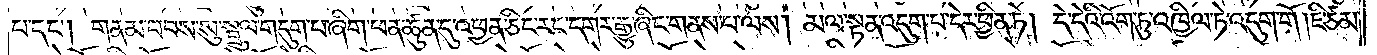པ་དང༌། གནམ་བབས་སུ་སྦྲུལ་གདུག་པ་ཞིག་ཕན་ཚུན་དུ་འཕྱན་ཅིང་རང་དགར་རྒྱུ་ཞིང་གནས་པ་ལས། མལ་སྟན་འདུག་པ་དེར་ཕྱིན་ཏེ། དེ་དེའི་འོག་ཏུ་འཁྱིལ་ཏེ་འདུག་གོ །ཇི་ཙམ་
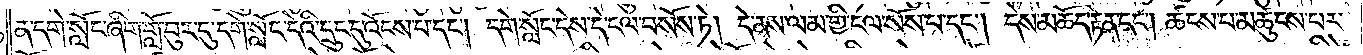ན་དགེ་སློང་ཞིག་གློ་བུར་དུ་དགེ་སློང་དེའི་དྲུང་དུ་འོངས་པ་དང༌། དགེ་སློང་དེས་དེ་ངལ་བསོས་ཏེ། དེ་ནས་ལམ་གྱི་ངལ་སོས་པ་དང༌། དེས་མཆོག་རྟེན་དང༌། ཚངས་པ་མཚུངས་པར་
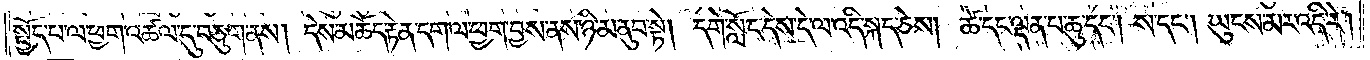སྤྱོད་པ་ལ་ཕྱག་འཚལ་དུ་བཅུག་ནས། དེས་མཆོད་རྟེན་དག་ལ་ཕྱག་བྱས་ནས་ཉི་མ་ནུབ་སྟེ། དགེ་སློང་དེས་དེ་ལ་འདི་སྐད་ཅེས། ཚེ་དང་ལྡན་པ་ཆུ་དང༌། ས་དང༌། ཡུངས་མར་འདི་རེ།
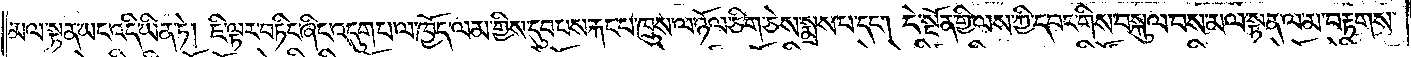མལ་སྟན་ཡང་འདི་ཡིན་ཏེ། ཇི་ལྟར་བཏིང་ཞིང་འདུག་པ་ལ་ཁྱོད་ལམ་གྱི་དུབ་པས་རྐང་པ་ཁྲུས་ལ་ཉོལ་ཅིག་ཅེས་སྨྲས་པ་དང༌། དེ་སྔོན་གྱི་ལས་ཀྱི་དབང་གིས་བསྐུལ་བས་མལ་སྟན་ལ་མ་བརྟགས་
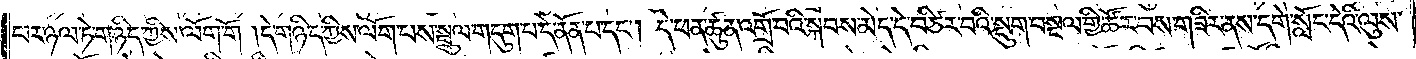པར་ཉལ་ཏེ་གཉིད་ཀྱིས་ལོག་གོ །དེ་གཉིས་ཀྱིས་ལོག་པས་སྦྲུལ་གདུག་པ་དེ་ནོན་པ་དང༌། དེ་ཕན་ཚུན་འགྲོ་བའི་སྐབས་མེད་དེ་བཙིར་བའི་སྡུག་བསྔལ་གྱི་ཚོར་བས་གཟིར་ནས་དགེ་སློང་དེའི་ལུས་
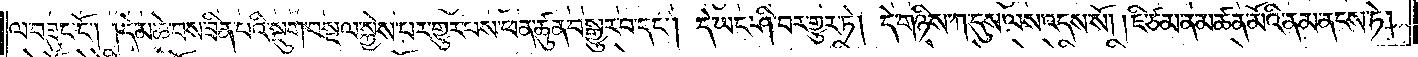ལ་བཟུང་ངོ༌། །དེ་མཆེ་བས་ཟིན་པའི་སྡུག་བསྔལ་སྐྱེས་པར་གྱུར་པས་ཕན་ཚུན་བསྒྱུར་བ་དང༌། དེ་ཡང་ཤི་བར་གྱུར་ཏེ། དེ་གཉིས་ཀ་དུས་ལས་འདས་སོ། །ཇི་ཙམ་ན་མཚན་མོའི་ནམ་ནངས་ཏེ།
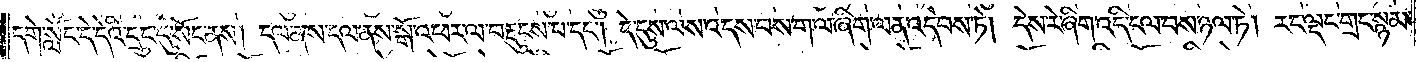དགེ་སློང་དེ་དེའི་དྲུང་དུ་སོང་ནས། དལ་ནས་དལ་ནས་སྒོ་འཕར་ལ་བརྡུངས་པ་དང༌། དེ་དུས་ལས་འདས་བས་ག་ལ་ཞིག་ལན་འདེབས་ཏེ། དེས་རེ་ཞིག་འདི་ངལ་བས་ཉལ་ཏེ། རང་ལྡང་གྲང་སྙམ་
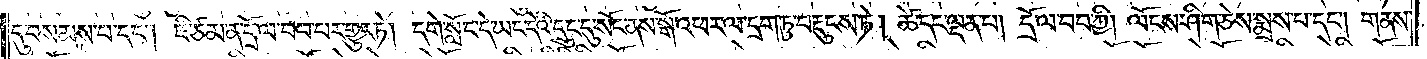དུ་བསམས་པ་དང༌། ཇི་ཙམ་ན་དྲོ་ལ་བབ་པར་གྱུར་ཏེ། དགེ་སློང་དེ་ཡང་དེའི་དྲུང་དུ་སོང་ནས་སྒོ་འཕར་ལ་དྲག་ཏུ་བརྡུངས་ཏེ། ཚེ་དང་ལྡན་པ། དྲོ་ལ་བབ་ཀྱི། ལོངས་ཤིག་ཅེས་སྨྲས་པ་དང༌། གནས་
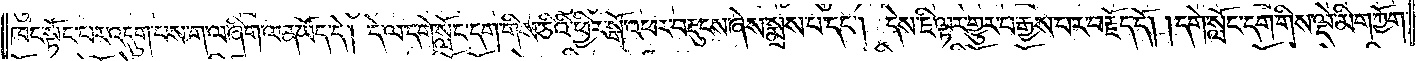ཁང་སྟོང་པར་འདུག་པས་ག་ལ་ཞིག་ལན་ཡོད་དེ། དེ་ལ་དགེ་སློང་དག་གིས་ཅིའི་ཕྱིར་སྒོ་འཕར་བརྡུངས་ཞེས་སྨྲས་པ་དང༌། དེས་ཇི་ལྟར་གྱུར་པ་རྒྱས་པར་བརྗོད་དོ། །དགེ་སློང་དག་གིས་ལྡེ་མིག་ཀྱོག་
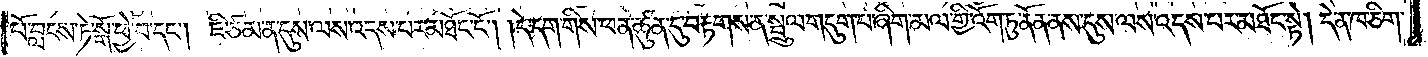པོ་བླངས་ཏེ་སྒོ་ཕྱེ་བ་དང༌། ཇི་ཙམ་ན་དུས་ལས་འདས་པར་མཐོང་ངོ༌། །དེ་དག་གིས་ཕན་ཚུན་དུ་བརྟགས་ན་སྦྲུལ་གདུག་པ་ཞིག་མལ་གྱི་འོག་ཏུ་ནོན་ནས་དུས་ལས་འདས་པར་མཐོང་སྟེ། དེ་ན་ཁ་ཅིག་
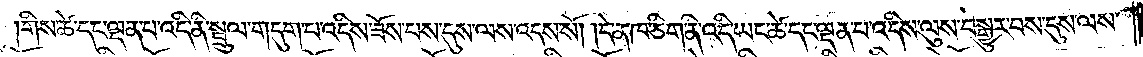གིས་ཚེ་དང་ལྡན་པ་འདི་ནི་སྦྲུལ་གདུག་པ་འདིས་ཟོས་པས་དུས་ལས་འདས་སོ། །དེ་ན་ཁ་ཅིག་ནི་འདི་ཡང་ཚེ་དང་ལྡན་པ་འདིས་ལུས་བསྒྱུར་བས་དུས་ལས་
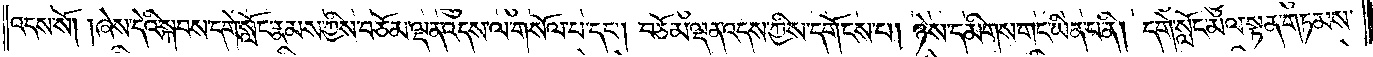འདས་སོ། །ཞེས་དེའི་སྐབས་དགེ་སློང་རྣམས་ཀྱིས་བཅོམ་ལྡན་འདས་ལ་གསོལ་པ་དང༌། བཅོམ་ལྡན་འདས་ཀྱིས་དགོངས་པ། ཉེས་དམིགས་གང་ཡིན་པ་ནི། དགེ་སློང་མལ་སྟན་གཏམས་
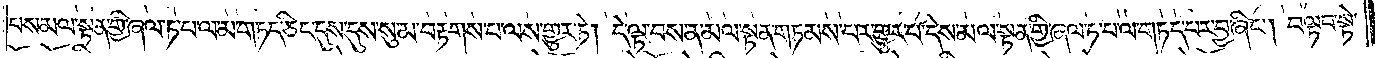པས་མལ་སྟན་གྱི་ཞལ་ཏ་པ་ལ་མ་གཏད་ཅིང་དུས་དུས་སུ་མ་བརྟགས་པ་ལས་གྱུར་ཏེ། དེ་ལྟ་བས་ན་མལ་སྟན་གཏམས་པར་གྱུར་པ་དེས་མལ་སྟན་གྱི་ཞལ་ཏ་པ་ལ་གཏད་པར་བྱ་ཞིང༌། བལྟབ་སྟེ་
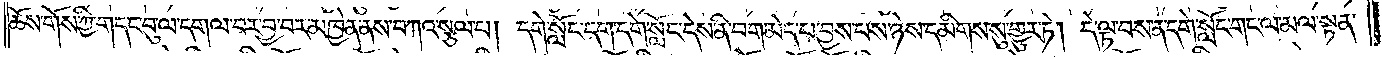ཆོས་གོས་ཀྱི་གདང་བུ་ལ་དགལ་བར་བྱ་བར་མཁྱེན་ནས་བཀའ་སྩལ་པ། དགེ་སློང་དག་དགེ་སློང་དེས་ནི་བག་མེད་པ་བྱས་པས་ཉེས་དམིགས་སུ་གྱུར་ཏེ། དེ་ལྟ་བས་ན་དགེ་སློང་གང་ལ་མལ་སྟན་
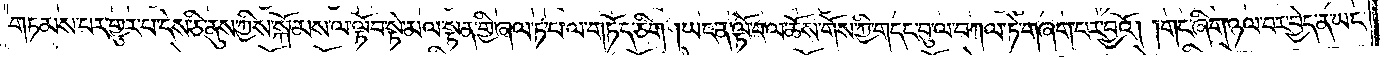གཏམས་པར་གྱུར་པ་དེས་ཅི་ནུས་ཀྱིས་སྐོམས་ལ་ལྟོ་བ་སྟེ་མལ་སྟན་གྱི་ཞལ་ཏ་པ་ལ་གཏོད་ཅིག །ཡང་ན་ལྟོ་བ་ལ་ཆོས་གོས་ཀྱི་གདང་བུ་ལ་བཀལ་ཏེ་གཞག་པར་བྱའོ། །གང་ཞིག་ཉལ་བར་བྱེད་ན་ཡང་
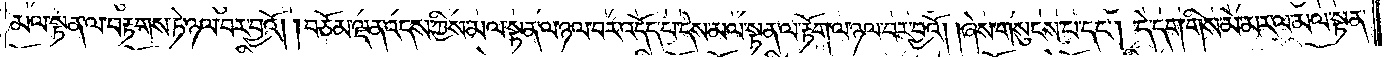མལ་སྟན་ལ་བརྟགས་ཏེ་ཉལ་བར་བྱའོ། །བཅོམ་ལྡན་འདས་ཀྱིས་མལ་སྟན་ལ་ཉལ་བར་འདོད་པ་དེས་མལ་སྟན་ལ་རྟོག་ལ་ཉལ་བར་བྱའོ། །ཞེས་གསུངས་པ་དང༌། དེ་དག་གིས་མེ་མར་ལ་མལ་སྟན་
